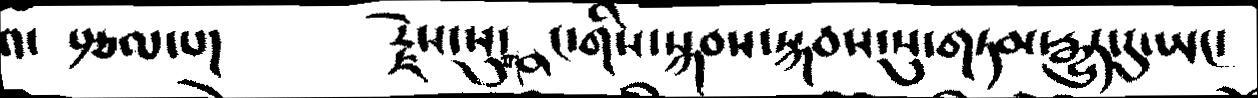འ་  རྩལ་པ།    རྗེས་སུ་གནང་གིས་སྐབས་སྐབས་སུ་གཏམ་རྒྱུད་དུ་ཡང་
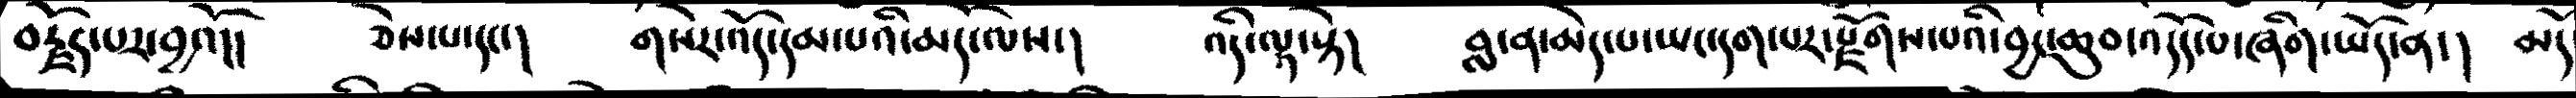བརྗོད་པར་བྱའོ།།   ཅེས་པ་དང་།     གསེར་འོད་དམ་པའི་མདོ་ལས་།    འདི་ལྟ་སྟེ།    བླ་ན་མེད་པ་ཡང་དག་པར་རྫོགས་པའི་བྱང་ཆུབ་འདོད་པ་ཞིག་ཡོད་ན་།   མདོ
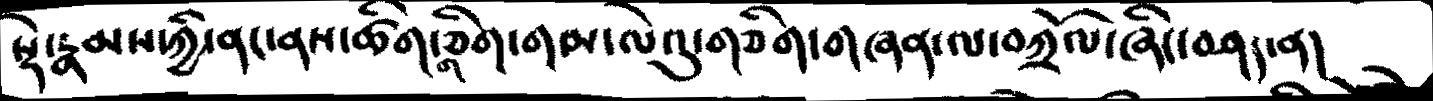སྡེ་རྣམས་ཀྱི་ནང་ནས་ཚིག་གཅིག་གམ་ལེའུ་གཅིག་གཞན་ལ་བཀྲོལ་ཞིང་བཤད་ན།
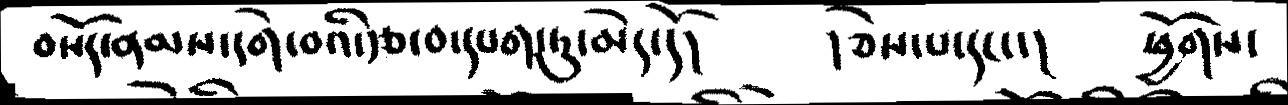བསོད་ནམས་དགེ་བའི་རྩ་བ་དཔག་ཏུ་མེད་དོ།       །ཅེས་པ་དང་་།       ཕྱོགས་
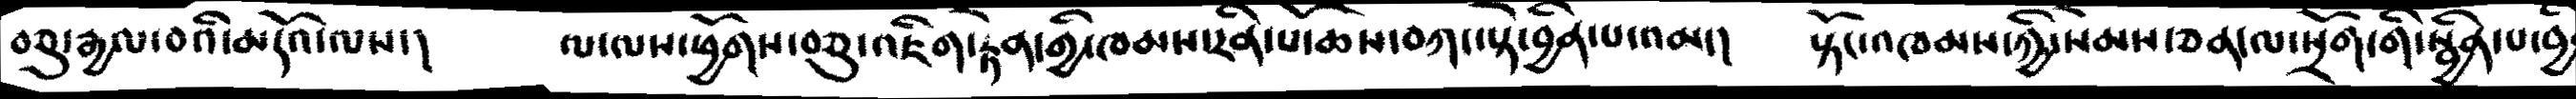བཅུ་རྒྱལ་བའི་མདོའ་ལས་།   ལ་ལས་ཕྱོགས་བཅུ་འཇིག་རྟེན་གྱི་ཁམས་རིན་པོ་ཆེས་བཀང་སྟེ་བྱིན་པ་འམ་།    སྟོང་འཁམས་ཀྱི་སེམས་ཅན་ལ་སྲོག་གི་སྦྱིན་པ་བྱ
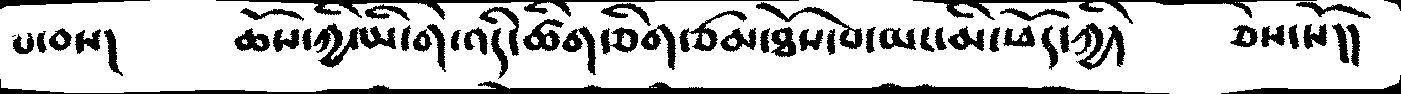པ་བས།    ཆོས་ཀྱི་ཡི་གེ་འདི་ཚིག་ཅིག་ཙམ་ཐོས་པ་ཡང་མི་ཕོད་ཀྱི།     ཅེས་སོ།།
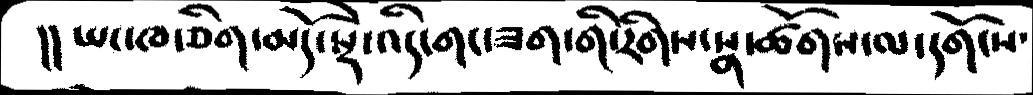།། ཡང་ཁ་ཅིག་མདོ་སྡེ་འདི་གང་ཟག་གི་རིགས་སྣ་ཚོགས་ལ་དགོངས་
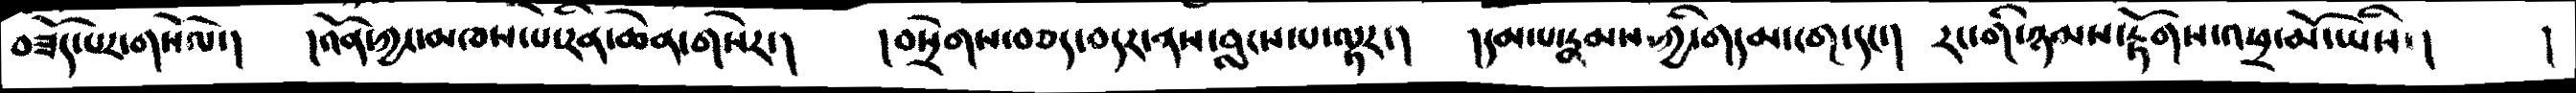བཟོད་པར་གསོལ་།   །འོན་ཀྱང་མཁས་པ་རིན་ཆེན་གསེར་།   །བསྲེགས་བཅད་བདར་ནས་བླངས་པ་ལྟར་།   །དམ་པ་རྣམས་ཀྱི་གདམ་ངག་དང་།    རང་གི་ཉམས་རྟོགས་འཕྲ་མོ་ཡིས་།  །
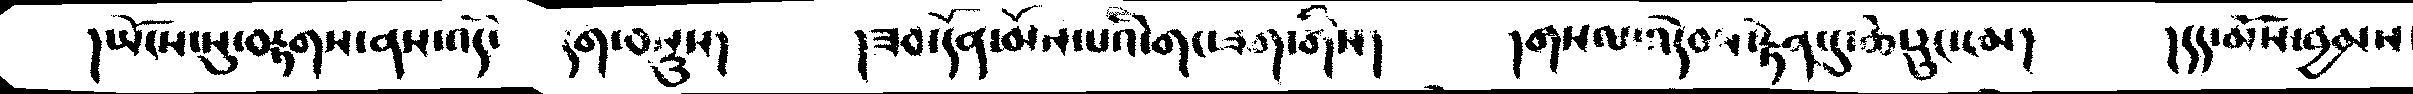།ཡོངས་སུ་བརྟགས་ནས་འདོ་  དག་བསྡུས།      །ཟབ་དོན་མོས་པའི་གང་ཟག་གིས་།    །གསལ་འདེབས་རྟེན་དུ་ཆེ་རུང་ངམ།    །དད་མོས་བྱམས་
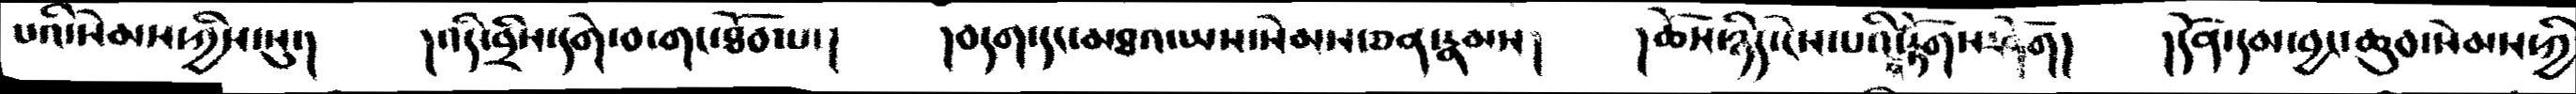པའི་སེམས་ཀྱིས་སུ་།     །འདི་བྲིས་དགེ་བ་གང་ཐོབ་པ་།      །བདག་དང་མཐའ་ཡས་སེམས་ཅན་རྣམས།    །ཆོས་ཉིད་ངེས་པའི་དོན་རྟོགས་ཤོག།    །དོན་དམ་བྱང་ཆུབ་སེམས་ཀྱི
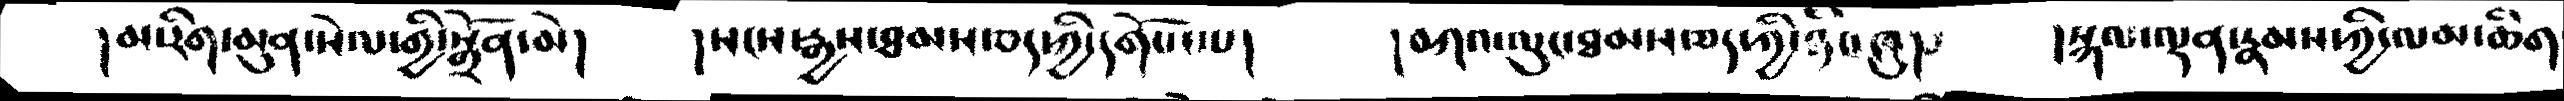།མ་རིག་མུན་སེལ་གྱི་སྒྲོན་མེ།     །སངས་རྒྱས་ཐམས་ཅད་ཀྱི་དགོས་པ།    །བཀའ་ལུང་ཐམས་ཅད་ཀྱི་ཉིང་ཁུ།       །སྐལ་ལྡན་རྣམས་ཀྱི་ལམ་ཆིག
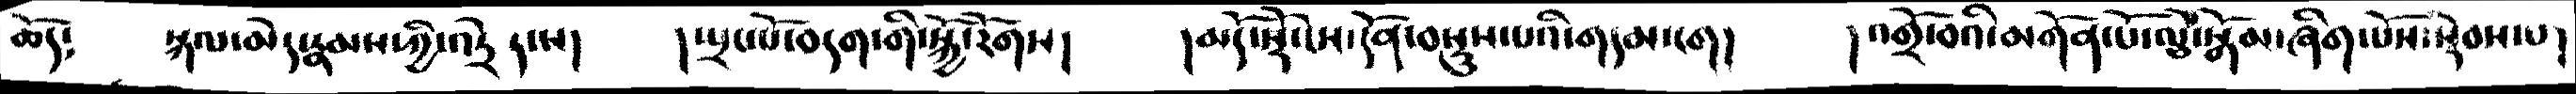ཆོད༴    སྐལ་མེད་རྣམས་ཀྱི་འཏྲེད་ས།     །ཡྲང་པོ་བདག་གི་སྐྱོ་རོགས།     །མདོ་སྡེ་ངེས་དོན་བསྡུས་པའི་གདམ་ངག།     །འགྲོ་བའི་མགོན་པོ་ལྕེ་སྒོམ་ཞིག་པོས་སྡེབས།
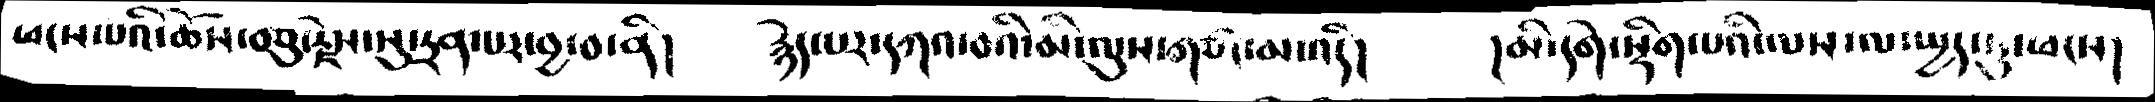ཕངས་པའི་ཆོས་བཅུ་རྗེས་སུ་ཏྲན་པར་བྱ་བ་ནི།     རྙེད་པར་དཀའ་བའི་མི་ལུས་གཙང་མ་འདི།     །མི་དགེ་སྡིག་པའི་ལས་ལ་ཡྱད་ཏུ་ཕངས།
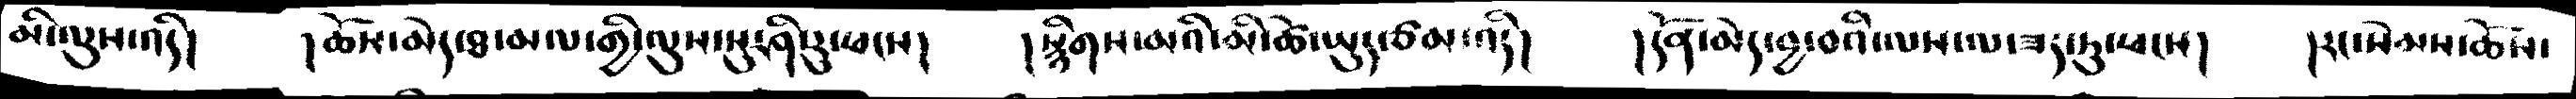མི་ལུས་འདི།    །ཆོས་མེད་ཐ་མལ་གྱི་ལུས་སུ་ཤི་རུ་ཕངས།     །སྙིགས་མའི་མི་ཚེ་ཡུད་ཙམ་འདི།     །དོན་མེད་བྱ་བའི་ལས་ལ་ཟད་ཏུ་ཕངས།     །རང་སེམས་ཆོས་
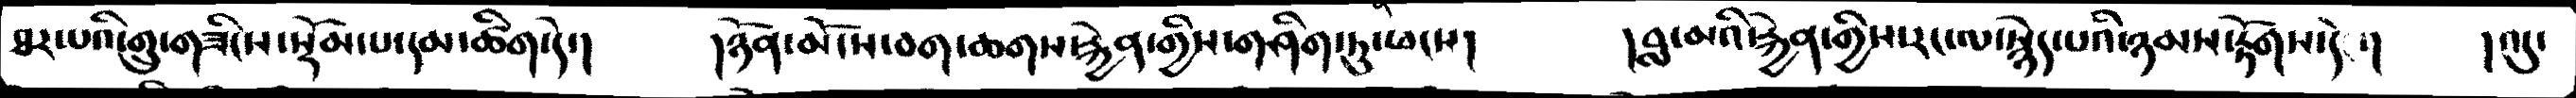ཐར་པའི་གྲུ་གཟིངས་སྡོམ་པ་དམ་ཚིག་དེ་།     །ཉོན་མོངས་བག་ཆགས་རྐྱེན་གྱིས་གཤིག་ཏུ་ཕངས།    །བླ་མའི་རྐྱེན་གྱིས་རང་ལ་སྙེད་པའི་ཉམས་རྟོགས་དེ་།    །འདུ་
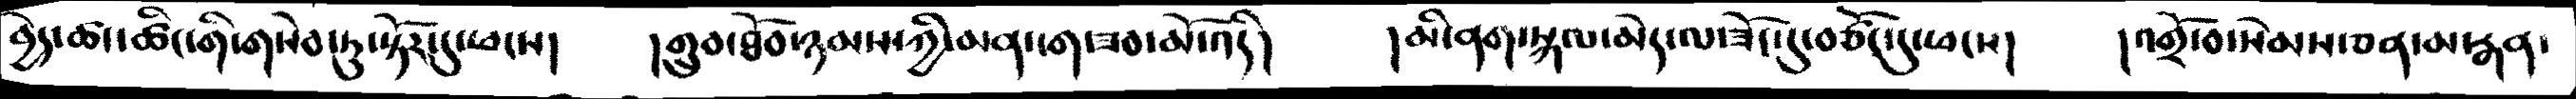བྱེད་ཚད་ཚིང་གི་གསེབ་ཏུ་སྟོར་དུ་ཕངས།    །གྲུབ་ཐོབ་ཉམས་ཀྱི་མན་ངག་ཟབ་མོ་འདི།      །མི་ནག་སྐལ་མེད་ལ་ཟོང་དུ་བཅོང་དུ་ཕངས།     །འགྲོ་བ་སེམས་ཅན་མ་རྒན་
